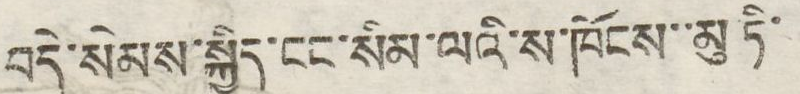བདེ་སེམས་སྐྱིད་ངང་སིམ་ལའི་ས་ཁོངས་་མུ་ཏི་
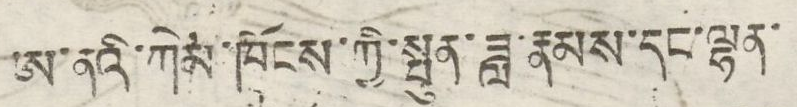ཨ་ནའི་ཀེམ་ཁོངས་ཀྱི་སྤུན་ཟླ་རྣམས་དང་ལྷན་
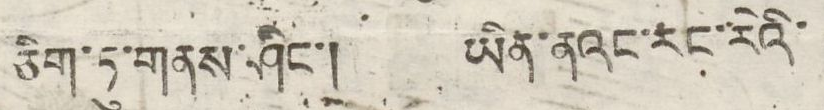ཅིག་ཏུ་གནས་ཤིང་། ཡིན་ནའང་རང་རེའི་
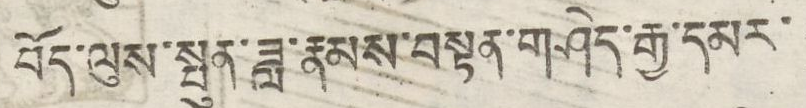བོད་ལུས་སྤུན་ཟླ་རྣམས་བསྟན་གཤེད་རྒྱ་དམར་
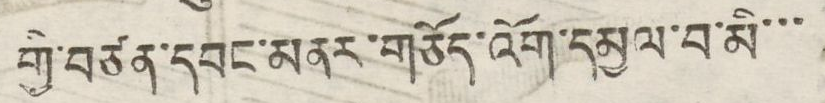གྱི་བཙན་དབང་མནར་གཅོད་འོག་དམྱལ་བ་མི་་་
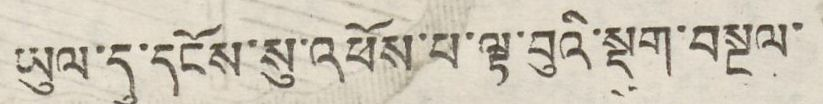ཡུལ་དུ་དངོས་སུ་འཕོས་པ་ལྟ་བུའི་སྡུག་བསྔལ་
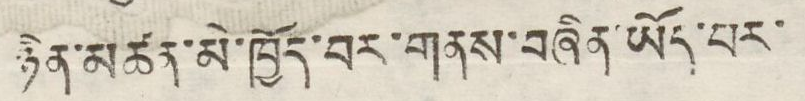ཉིན་མཚན་མེ་ཁྱོད་བར་གནས་བཞིན་ཡོད་པར་
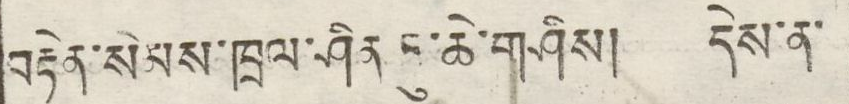བརྟེན་སེམས་ཁྲལ་ཤིན་ཏུ་ཆེ་གཤིས། དེས་ན་
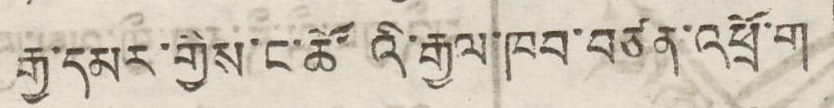རྒྱ་དམར་གྱིས་ང་ཚོ འི་རྒྱལ་ཁབ་བཙན་འཕྲོ་ག
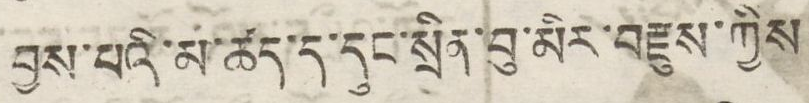བྱས་པའི་མ་ཚད་ད་དུང་སྲིན་བུ་མིར་བརྫུས་ཀྱིས
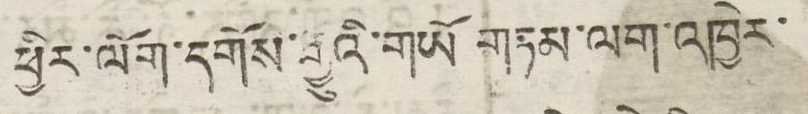ཕྱིར་ལོག་དགོས་རྒྱུའི་གཡི གཏམ་ལག་འཁྱེར་
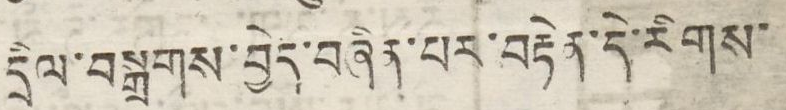དྲིལ་བསྒྲགས་བྱེད་བཞིན་པར་བརྟེན་དེ་རིགས་
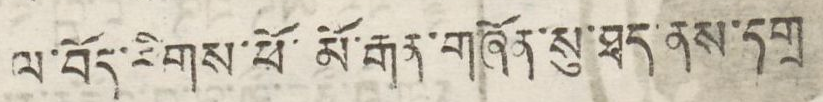ལ་བོད་རིགས་ཕོ་ མོ་རྒན་གཞོན་སུ་ཐད་ནས་དགྲ
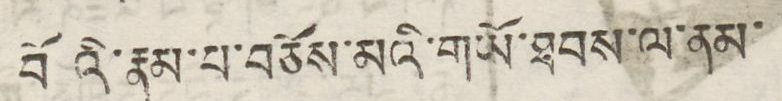བོ འི་རྣམ་པ་བཅོས་མའི་གཡོ་ཐབས་ལ་ནམ་
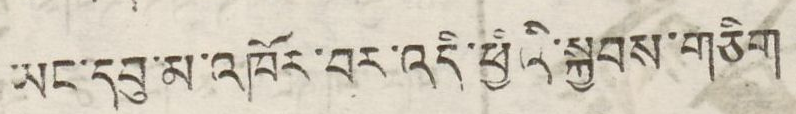ཡང་དབུ་མ་འཁོར་བར་འདི་ཕྱིའི་སྐྱབས་གཅིག
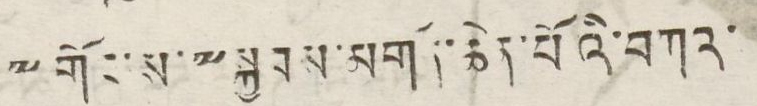༸གོང་ས་༸སྐྱབས་མགོན་ཆེན་པོའི་བཀའ་
